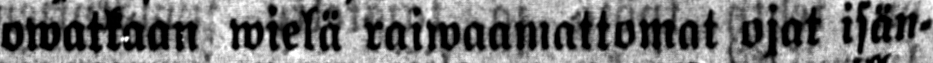owatkaan wirlä raiwaamattomat ojat isän-
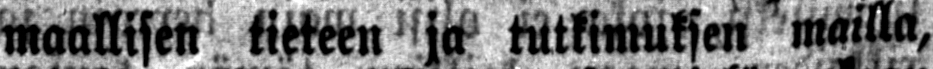maallisen tieteen ja tutkimuksen mailla,
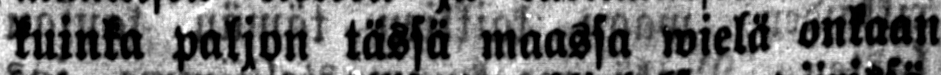kuinka paljon tässä maassa wielä onkaan
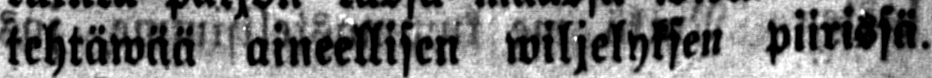tehtäwää aineellisen wiljelyksen piirissä.
